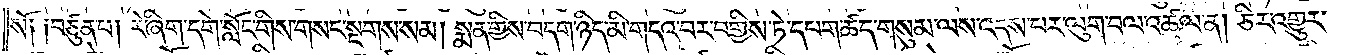སོ༑ ༑བཙུན་པ། རེ་ཞིག་དགེ་སློང་གིས་གསང་སྔགས་སམ། སྨན་གྱིས་བདག་ཉིད་མི་གདའ་བར་བགྱིས་ཏེ་དཔག་ཚད་གསུམ་ལས་འདས་པར་ལུག་བལ་འཚལ་ན། ཅིར་འགྱུར་
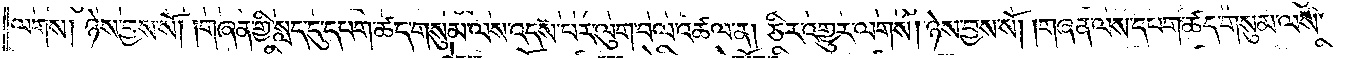ལགས། ཉེས་བྱས་སོ། །གཞན་གྱི་སླད་དུ་དཔག་ཚད་གསུམ་ལས་འདས་པར་ལུག་བལ་འཚལ་ན། ཅིར་འགྱུར་ལགས། ཉེས་བྱས་སོ། །གཞན་ལས་དཔག་ཚད་གསུམ་ལས་
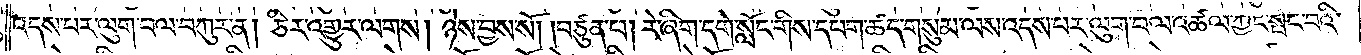འདས་པར་ལུག་བལ་བཀུར་ན། ཅིར་འགྱུར་ལགས། ཉེས་བྱས་སོ། །བཙུན་པ། རེ་ཞིག་དགེ་སློང་གིས་དཔག་ཚད་གསུམ་ལས་འདས་པར་ལུག་བལ་འཚལ་ཀྱང་སྤང་བའི་
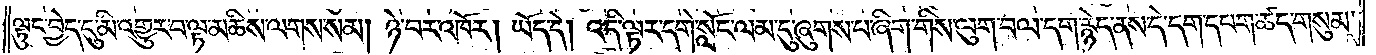ལྟུང་བྱེད་དུ་མི་འགྱུར་བ་ལྟ་མཆིས་ལགས་སམ། ཉེ་བར་འཁོར། ཡོད་དེ། འདི་ལྟར་དགེ་སློང་ལམ་དུ་ཞུགས་པ་ཞིག་གིས་ལུག་བལ་དག་རྙེད་ནས་དེ་དག་དཔག་ཚད་གསུམ་
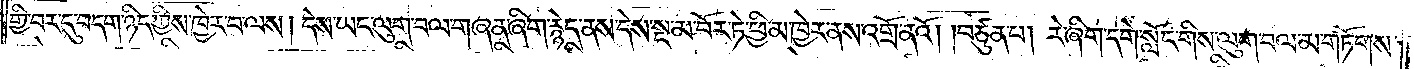གྱི་བར་དུ་བདག་ཉིད་ཀྱིས་ཁྱེར་བ་ལས། དེས་ཡང་ལུག་བལ་གཞན་ཞིག་རྙེད་ནས་དེས་སྔ་མ་བོར་ཏེ་ཕྱི་མ་ཁྱེར་ནས་འགྲོ་ནའོ། །བཙུན་པ། རེ་ཞིག་དགེ་སློང་གིས་ལུག་བལ་མ་གཏོགས་
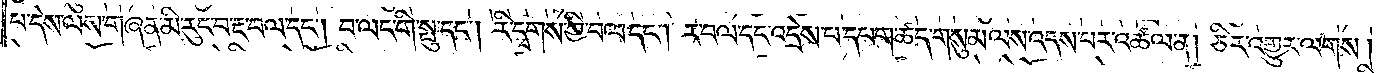པ་དེས་ལས་གཞན་མི་རུང་བ་རྔ་བལ་དང༌། བ་ལང་གི་སྤུ་དང༌། རི་དྭགས་ཀྱི་བལ་དང༌། ར་བལ་དང་འདྲེས་པ་དཔག་ཚད་གསུམ་ལས་འདས་པར་འཚལ་ན། ཅིར་འགྱུར་ལགས།
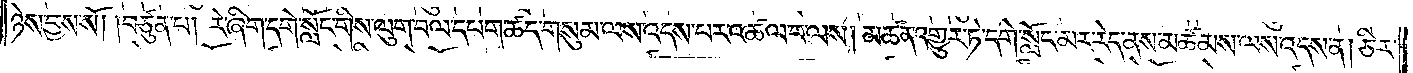ཉེས་བྱས་སོ། །བཙུན་པ། རེ་ཞིག་དགེ་སློང་གིས་ལུག་བལ་དཔག་ཚད་གསུམ་ལས་འདས་པར་འཚལ་བ་ལས། མཚན་འགྱུར་ཏེ་དགེ་སློང་མར་རེད་ནས་མཚམས་ལས་འདས་ན། ཅིར་
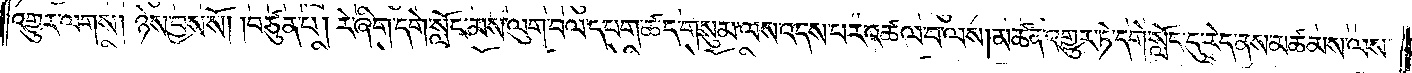འགྱུར་ལགས། ཉེས་བྱས་སོ། །བཙུན་པ། རེ་ཞིག་དགེ་སློང་མས་ལུག་བལ་དཔག་ཚད་གསུམ་ལས་འདས་པར་འཚལ་བ་ལས། མཚན་འགྱུར་ཏེ། དགེ་སློང་དུ་རེད་ནས་མཚམས་ལས་
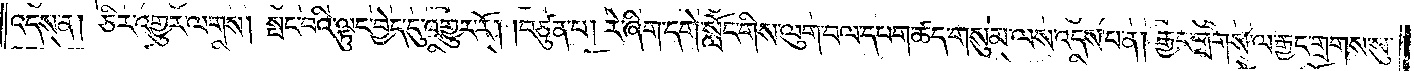འདས་ན། ཅིར་འགྱུར་ལགས། སྤང་བའི་ལྟུང་བྱེད་དུ་འགྱུར་རོ། །བཙུན་པ། རེ་ཞིག་དགེ་སློང་གིས་ལུག་བལ་དཔག་ཚད་གསུམ་ལས་འདས་པ་ན། རྒྱང་གྲགས་ལ་རྒྱང་གྲགས་སུ་
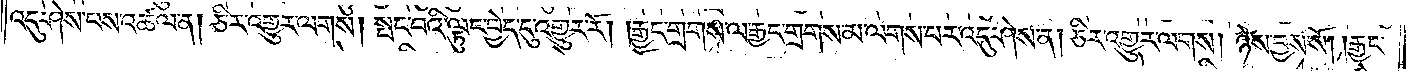འདུ་ཤེས་པས་འཚལ་ན། ཅིར་འགྱུར་ལགས། སྤང་བའི་ལྟུང་བྱེད་དུ་འགྱུར་རོ། །རྒྱང་གྲགས་ལ་རྒྱང་གྲགས་མ་ལགས་པར་འདུ་ཤེས་ན། ཅིར་འགྱུར་ལགས། ཉེས་བྱས་སོ། །རྒྱང་
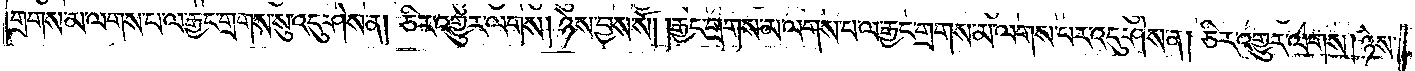གྲགས་མ་ལགས་པ་ལ་རྒྱང་གྲགས་སུ་འདུ་ཤེས་ན། ཅིར་འགྱུར་ལགས། ཉེས་བྱས་སོ། །རྒྱང་གྲགས་མ་ལགས་པ་ལ་རྒྱང་གྲགས་མ་ལགས་པར་འདུ་ཤེས་ན། ཅིར་འགྱུར་ལགས། ཉེས་
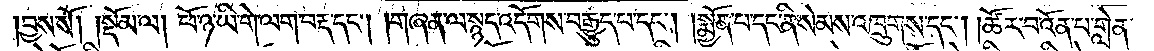།བྱས་སོ།  །སྡོམ་ལ། ཕོ་ཉ་ཡི་གེ་ལག་བརྡ་དང༌། །གཞན་ལ་སྙད་འདོགས་བརྒྱུད་པ་དང༌། །སྨྱོན་པ་དང་ནི་སེམས་འཁྲུགས་དང༌། །ཚོར་བ་འོན་པ་གླེན་
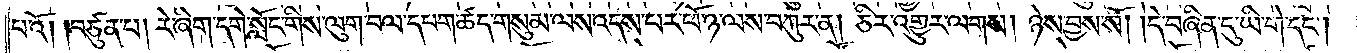པའོ། །བཙུན་པ། རེ་ཞིག་དགེ་སློང་གིས་ལུག་བལ་དཔག་ཚད་གསུམ་ལས་འདས་པར་ཕོ་ཉ་ལས་བཀུར་ན། ཅིར་འགྱུར་ལགས། ཉེས་བྱས་སོ། །དེ་བཞིན་དུ་ཡི་གེ་དང༌།
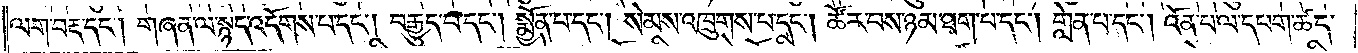ལག་བརྡ་དང༌། གཞན་ལ་སྙད་འདོགས་པ་དང༌། བརྒྱུད་པ་དང༌། སྨྱོན་པ་དང༌། སེམས་འཁྲུགས་པ་དང༌། ཚོར་བས་ཉམ་ཐག་པ་དང༌། གླེན་པ་དང༌། འོན་པ་ལ་དཔག་ཚད་
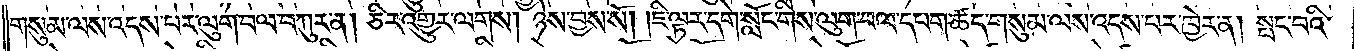གསུམ་ལས་འདས་པར་ལུག་བལ་བཀུར་ན། ཅིར་འགྱུར་ལགས། ཉེས་བྱས་སོ། །ཇི་ལྟར་དགེ་སློང་གིས་ལུག་བལ་དཔག་ཚད་གསུམ་ལས་འདས་པར་ཁྱེར་ན། སྤང་བའི་
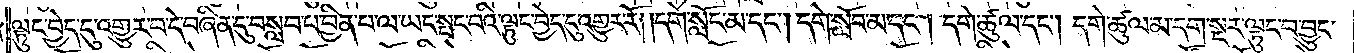ལྟུང་བྱེད་དུ་འགྱུར་བ་དེ་བཞིན་དུ་བསླབ་པ་བྱིན་པ་ལ་ཡང་སྤང་བའི་ལྟུང་བྱེད་དུ་འགྱུར་རོ། །དགེ་སློང་མ་དང༌། དགེ་སློབ་མ་དང༌། དགེ་ཚུལ་དང༌། དགེ་ཚུལ་མ་དག་སྔར་ལྟུང་བ་བྱུང་
